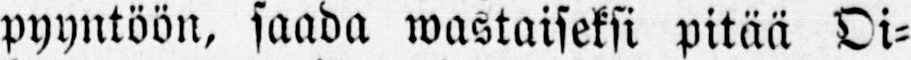pyyntöön, saada wastaiseksi pitää Oi-
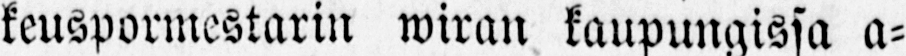keuspormestarin wiran kaupungissa a-
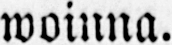woinna.
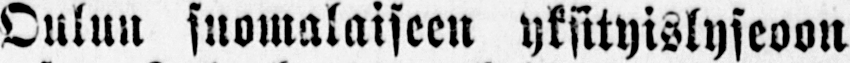Oulun suomalaiseen yksityislyseoon
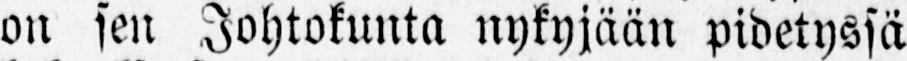on sen Johtokunta nykyjään pidetyssä
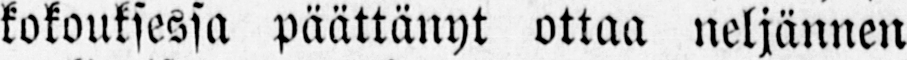kokouksessa päättänyt ottaa neljännen
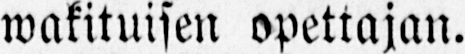wakituisen opettajan.
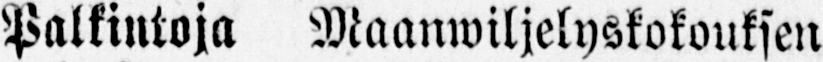Palkintoja Maanwiljelyskokouksen
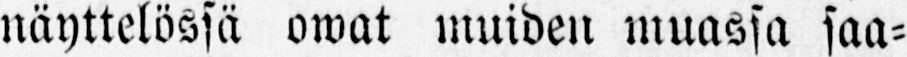näyttelössä owat muiden muassa saa-
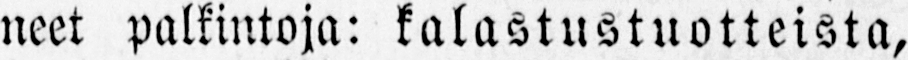neet palkintoja: kalastustuotteista,
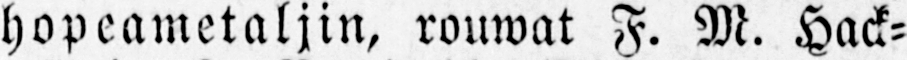hopeametaljin, rouwat F. M. Hack-
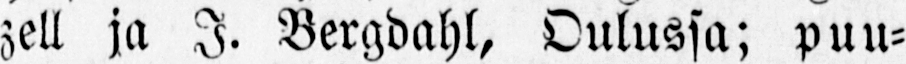zell ja I. Bergdahl, Oulussa; puu-
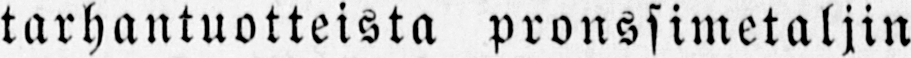tarhantuotteista pronssimetaljin
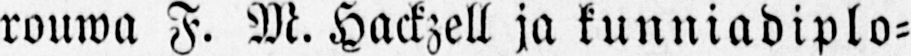rouwa F. M. Hackzell ja kunniadiplo-
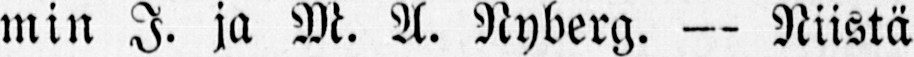min I. ja M. A. Nyberg. — Niistä
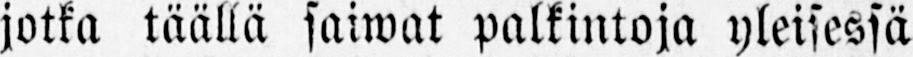jotka täällä saiwat palkintoja yleisessä
